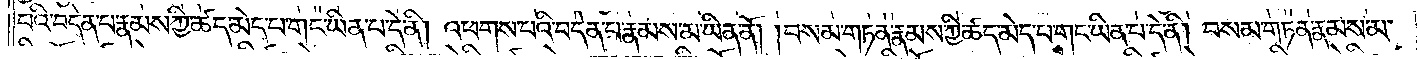པའི་བདེན་པ་རྣམས་ཀྱི་ཚད་མེད་པ་གང་ཡིན་པ་དེ་ནི། འཕགས་པའི་བདེན་པ་རྣམས་མ་ཡིན་ནོ། །བསམ་གཏན་རྣམས་ཀྱི་ཚད་མེད་པ་གང་ཡིན་པ་དེ་ནི། བསམ་གཏན་རྣམས་མ་
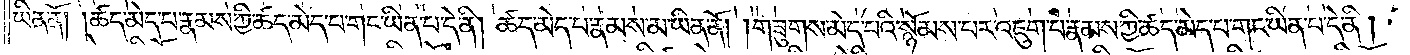ཡིན་ནོ། །ཚད་མེད་པ་རྣམས་ཀྱི་ཚད་མེད་པ་གང་ཡིན་པ་དེ་ནི། ཚད་མེད་པ་རྣམས་མ་ཡིན་ནོ། །གཟུགས་མེད་པའི་སྙོམས་པར་འཇུག་པ་རྣམས་ཀྱི་ཚད་མེད་པ་གང་ཡིན་པ་དེ་ནི།
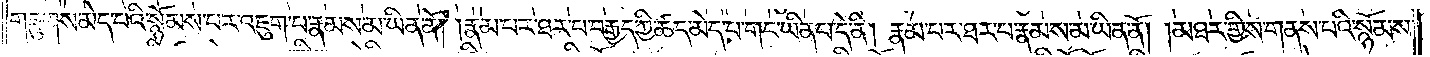གཟུགས་མེད་པའི་སྙོམས་པར་འཇུག་པ་རྣམས་མ་ཡིན་ནོ། །རྣམ་པར་ཐར་པ་བརྒྱད་ཀྱི་ཚད་མེད་པ་གང་ཡིན་པ་དེ་ནི། རྣམ་པར་ཐར་པ་རྣམས་མ་ཡིན་ནོ། །མཐར་གྱིས་གནས་པའི་སྙོམས་
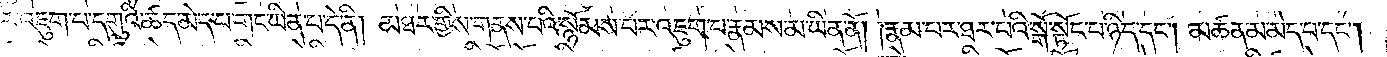པར་འཇུག་པ་དགུའི་ཚད་མེད་པ་གང་ཡིན་པ་དེ་ནི། མཐར་གྱིས་གནས་པའི་སྙོམས་པར་འཇུག་པ་རྣམས་མ་ཡིན་ནོ། །རྣམ་པར་ཐར་པའི་སྒོ་སྟོང་པ་ཉིད་དང༌། མཚན་མ་མེད་པ་དང༌།
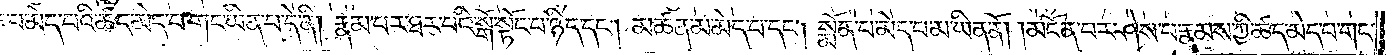པ་མེད་པའི་ཚད་མེད་པ་གང་ཡིན་པ་དེ་ནི། རྣམ་པར་ཐར་པའི་སྒོ་སྟོང་པ་ཉིད་དང༌། མཚན་མ་མེད་པ་དང༌། སྨོན་པ་མེད་པ་མ་ཡིན་ནོ། །མངོན་པར་ཤེས་པ་རྣམས་ཀྱི་ཚད་མེད་པ་གང་
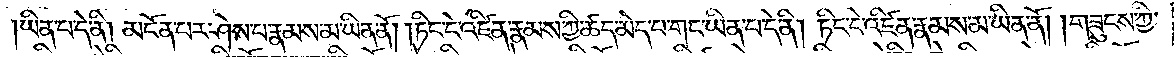ཡིན་པ་དེ་ནི། མངོན་པར་ཤེས་པ་རྣམས་མ་ཡིན་ནོ། །ཏིང་ངེ་འཛིན་རྣམས་ཀྱི་ཚད་མེད་པ་གང་ཡིན་པ་དེ་ནི། ཏིང་ངེ་འཛིན་རྣམས་མ་ཡིན་ནོ། །གཟུངས་ཀྱི་
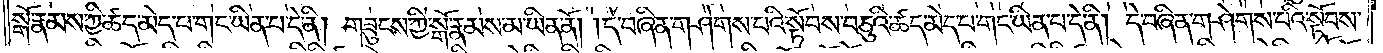སྒོ་རྣམས་ཀྱི་ཚད་མེད་པ་གང་ཡིན་པ་དེ་ནི། གཟུངས་ཀྱི་སྒོ་རྣམས་མ་ཡིན་ནོ། །དེ་བཞིན་གཤེགས་པའི་སྟོབས་བཅུའི་ཚད་མེད་པ་གང་ཡིན་པ་དེ་ནི། དེ་བཞིན་གཤེགས་པའི་སྟོབས་
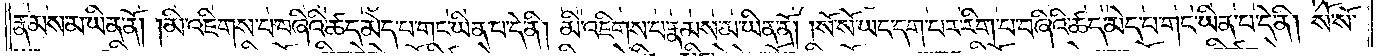རྣམས་མ་ཡིན་ནོ། །མི་འཇིགས་པ་བཞིའི་ཚད་མེད་པ་གང་ཡིན་པ་དེ་ནི། མི་འཇིགས་པ་རྣམས་མ་ཡིན་ནོ། །སོ་སོ་ཡང་དག་པར་རིག་པ་བཞིའི་ཚད་མེད་པ་གང་ཡིན་པ་དེ་ནི། སོ་སོ་
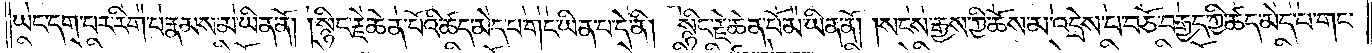ཡང་དག་པར་རིག་པ་རྣམས་མ་ཡིན་ནོ། །སྙིང་རྗེ་ཆེན་པོའི་ཚད་མེད་པ་གང་ཡིན་པ་དེ་ནི། སྙིང་རྗེ་ཆེན་པོ་མ་ཡིན་ནོ། །སངས་རྒྱས་ཀྱི་ཆོས་མ་འདྲེས་པ་བཅོ་བརྒྱད་ཀྱི་ཚད་མེད་པ་གང་
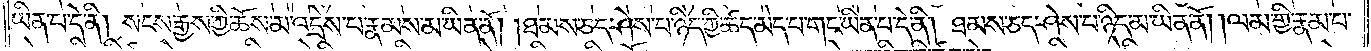ཡིན་པ་དེ་ནི། སངས་རྒྱས་ཀྱི་ཆོས་མ་འདྲེས་པ་རྣམས་མ་ཡིན་ནོ། །ཐམས་ཅད་ཤེས་པ་ཉིད་ཀྱི་ཚད་མེད་པ་གང་ཡིན་པ་དེ་ནི། ཐམས་ཅད་ཤེས་པ་ཉིད་མ་ཡིན་ནོ། །ལམ་གྱི་རྣམ་པ་
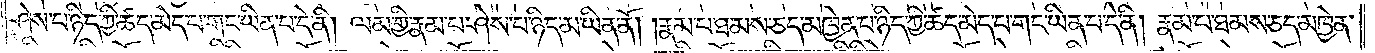ཤེས་པ་ཉིད་ཀྱི་ཚད་མེད་པ་གང་ཡིན་པ་དེ་ནི། ལམ་གྱི་རྣམ་པར་ཤེས་པ་ཉིད་མ་ཡིན་ནོ། །རྣམ་པ་ཐམས་ཅད་མཁྱེན་པ་ཉིད་ཀྱི་ཚད་མེད་པ་གང་ཡིན་པ་དེ་ནི། རྣམ་པར་ཐམས་ཅད་མཁྱེན་
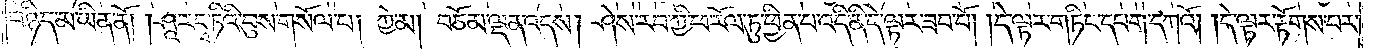པ་ཉིད་མ་ཡིན་ནོ། །ཤཱ་རདྭ་ཏིའི་བུས་གསོལ་པ། ཀྱེ་མ། བཅོམ་ལྡན་འདས། ཤེས་རབ་ཀྱི་ཕ་རོལ་ཏུ་ཕྱིན་པ་འདི་ནི་དེ་ལྟར་ཟབ་བོ། །དེ་ལྟར་གཏིང་དཔག་དཀའོ། །དེ་ལྟར་རྟོགས་པར་
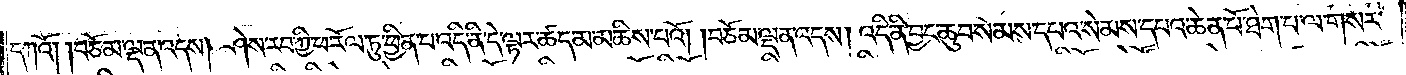དཀའོ། །བཅོམ་ལྡན་འདས། ཤེས་རབ་ཀྱི་ཕ་རོལ་ཏུ་ཕྱིན་པ་འདི་ནི་དེ་ལྟར་ཚད་མ་མཆིས་པའོ། །བཅོམ་ལྡན་འདས། འདི་ནི་བྱང་ཆུབ་སེམས་དཔའ་སེམས་དཔའ་ཆེན་པོ་ཐེག་པ་ལ་གསར་
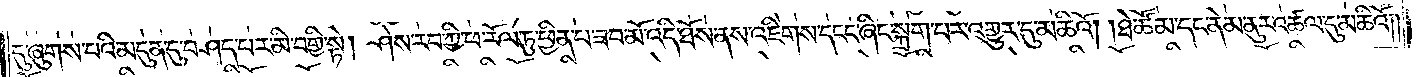དུ་ཞུགས་པའི་མདུན་དུ་བཤད་པར་མི་བགྱི་སྟེ། ཤེས་རབ་ཀྱི་ཕ་རོལ་ཏུ་ཕྱིན་པ་ཟབ་མོ་འདི་ཐོས་ནས་འཇིགས་དངང་ཞིང་སྐྲག་པར་འགྱུར་དུ་མཆིའོ། །ཐེ་ཚོམ་དང་ནེམ་ནུར་འཚལ་དུ་མཆིའོ། །
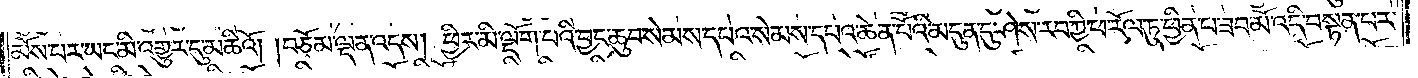མོས་པར་ཡང་མི་འགྱུར་དུ་མཆིའོ། །བཅོམ་ལྡན་འདས། ཕྱིར་མི་ལྡོག་པའི་བྱང་ཆུབ་སེམས་དཔའ་སེམས་དཔའ་ཆེན་པོའི་མདུན་དུ་ཤེས་རབ་ཀྱི་ཕ་རོལ་ཏུ་ཕྱིན་པ་ཟབ་མོ་འདི་བསྟན་པར་
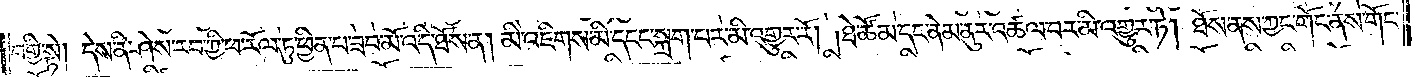བགྱི་སྟེ། དེས་ནི་ཤེས་རབ་ཀྱི་ཕ་རོལ་ཏུ་ཕྱིན་པ་ཟབ་མོ་འདི་ཐོས་ན། མི་འཇིགས་མི་དངང་སྐྲག་པར་མི་འགྱུར་རོ། །ཐེ་ཚོམ་དང་ནེམ་ནུར་འཚལ་བར་མི་འགྱུར་ཏེ། ཐོས་ནས་ཀྱང་གོང་ནས་གོང་
